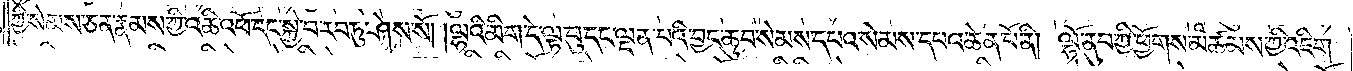ཀྱི་སེམས་ཅན་རྣམས་ཀྱི་འཆི་འཕོ་དང་སྐྱེ་བ་རབ་ཏུ་ཤེས་སོ། །ལྷའི་མིག་དེ་ལྟ་བུ་དང་ལྡན་པའི་བྱང་ཆུབ་སེམས་དཔའ་སེམས་དཔའ་ཆེན་པོ་ནི། ལྷོ་ནུབ་ཀྱི་ཕྱོགས་མཚམས་ཀྱི་འཇིག་
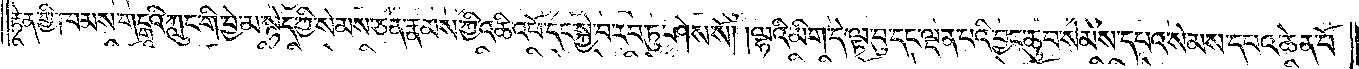རྟེན་གྱི་ཁམས་གངྒཱའི་ཀླུང་གི་བྱེ་མ་སྙེད་ཀྱི་སེམས་ཅན་རྣམས་ཀྱི་འཆི་འཕོ་དང་སྐྱེ་བ་རབ་ཏུ་ཤེས་སོ། །ལྷའི་མིག་དེ་ལྟ་བུ་དང་ལྡན་པའི་བྱང་ཆུབ་སེམས་དཔའ་སེམས་དཔའ་ཆེན་པོ་
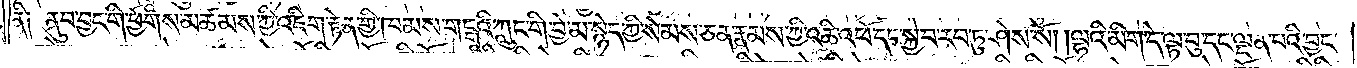ནི༑ ནུབ་བྱང་གི་ཕྱོགས་མཚམས་ཀྱི་འཇིག་རྟེན་གྱི་ཁམས་གངྒཱའི་ཀླུང་གི་བྱེ་མ་སྙེད་ཀྱི་སེམས་ཅན་རྣམས་ཀྱི་འཆི་འཕོ་དང་སྐྱེ་བ་རབ་ཏུ་ཤེས་སོ། །ལྷའི་མིག་དེ་ལྟ་བུ་དང་ལྡན་པའི་བྱང་
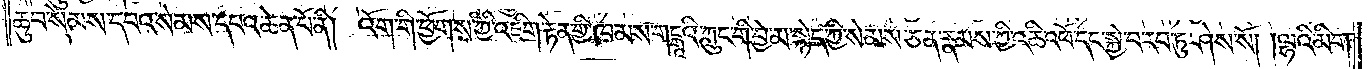ཆུབ་སེམས་དཔའ་སེམས་དཔའ་ཆེན་པོ་ནི། འོག་གི་ཕྱོགས་ཀྱི་འཇིག་རྟེན་གྱི་ཁམས་གངྒཱའི་ཀླུང་གི་བྱེ་མ་སྙེད་ཀྱི་སེམས་ཅན་རྣམས་ཀྱི་འཆི་འཕོ་དང་སྐྱེ་བ་རབ་ཏུ་ཤེས་སོ། །ལྷའི་མིག་
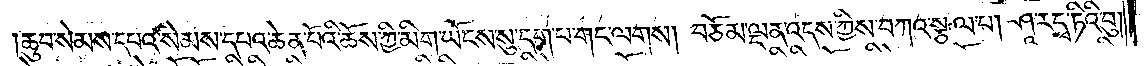ཆུབ་སེམས་དཔའ་སེམས་དཔའ་ཆེན་པོའི་ཆོས་ཀྱི་མིག་ཡོངས་སུ་དག་པ་གང་ལགས། བཅོམ་ལྡན་འདས་ཀྱིས་བཀའ་སྩལ་པ། ཤཱ་རདྭ་ཏིའི་བུ།
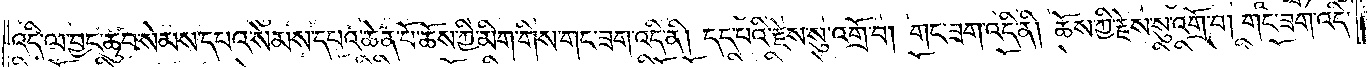འདི་ལ་བྱང་ཆུབ་སེམས་དཔའ་སེམས་དཔའ་ཆེན་པོ་ཆོས་ཀྱི་མིག་གིས་གང་ཟག་འདི་ནི། དད་པའི་རྗེས་སུ་འགྲོ་བ། གང་ཟག་འདི་ནི། ཆོས་ཀྱི་རྗེས་སུ་འགྲོ་བ། གང་ཟག་འདི་
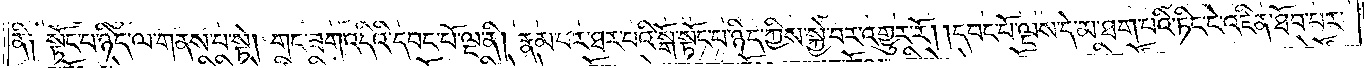ནི༑ སྟོང་པ་ཉིད་ལ་གནས་པ་སྟེ། གང་ཟག་འདིའི་དབང་པོ་ལྔ་ནི། རྣམ་པར་ཐར་པའི་སྒོ་སྟོང་པ་ཉིད་ཀྱིས་སྐྱེ་བར་འགྱུར་རོ། །དབང་པོ་ལྔས་དེ་མ་ཐག་པའི་ཏིང་ངེ་འཛིན་ཐོབ་པར་
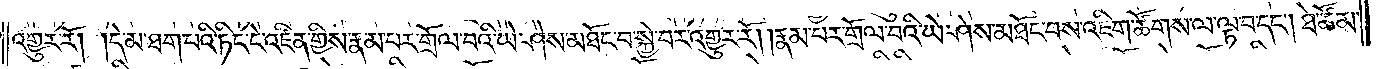འགྱུར་རོ། །དེ་མ་ཐག་པའི་ཏིང་ངེ་འཛིན་གྱིས་རྣམ་པར་གྲོལ་བའི་ཡེ་ཤེས་མཐོང་བ་སྐྱེ་བར་འགྱུར་རོ། །རྣམ་པར་གྲོལ་བའི་ཡེ་ཤེས་མཐོང་བས་འཇིག་ཚོགས་ལ་ལྟ་བ་དང༌། ཐེ་ཚོམ་
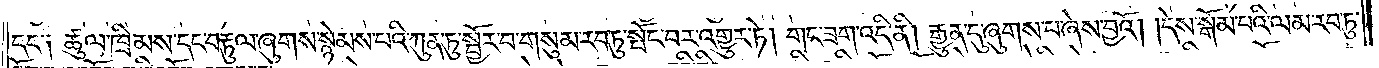དང་༑ ཚུལ་ཁྲིམས་དང་བརྟུལ་ཞུགས་སྙེམས་པའི་ཀུན་ཏུ་སྦྱོར་བ་གསུམ་རབ་ཏུ་སྤོང་བར་འགྱུར་ཏེ། གང་ཟག་འདི་ནི། རྒྱུན་དུ་ཞུགས་པ་ཞེས་བྱའོ། །དེས་སྒོམ་པའི་ལམ་རབ་ཏུ་
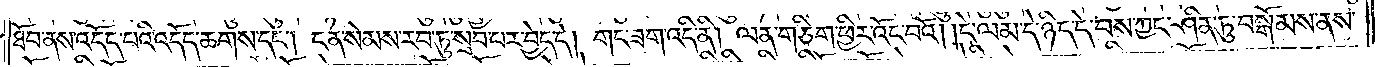ཐོབ་ནས་འདོད་པའི་འདོད་ཆགས་དང༌། ངན་སེམས་རབ་ཏུ་སྲབ་པར་བྱེད་དེ། གང་ཟག་འདི་ནི། ལན་གཅིག་ཕྱིར་འོང་བའོ། །དེ་ལམ་དེ་ཉིད་དེ་བས་ཀྱང་ཤིན་ཏུ་བསྒོམས་ནས་
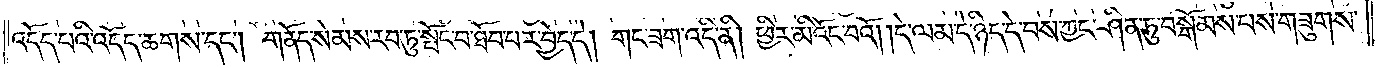འདོད་པའི་འདོད་ཆགས་དང༌། གནོད་སེམས་རབ་ཏུ་སྤོང་བ་ཐོབ་པར་བྱེད་དེ། གང་ཟག་འདི་ནི། ཕྱིར་མི་འོང་བའོ། །དེ་ལམ་དེ་ཉིད་དེ་བས་ཀྱང་ཤིན་ཏུ་བསྒོམས་པས་གཟུགས་
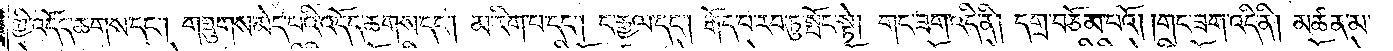ཀྱི་འདོད་ཆགས་དང༌། གཟུགས་མེད་པའི་འདོད་ཆགས་དང༌། མ་རིག་པ་དང༌། ང་རྒྱལ་དང༌། རྒོད་པ་རབ་ཏུ་སྤོང་སྟེ། གང་ཟག་འདི་ནི། དགྲ་བཅོམ་པའོ། །གང་ཟག་འདི་ནི། མཚན་མ་
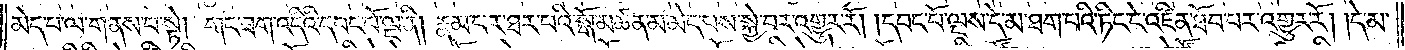མེད་པ་ལ་གནས་པ་སྟེ། གང་ཟག་འདིའི་དབང་པོ་ལྔ་ནི། རྣམ་པར་ཐར་པའི་སྒོ་མཚན་མ་མེད་པས་སྐྱེ་བར་འགྱུར་རོ། །དབང་པོ་ལྔས་དེ་མ་ཐག་པའི་ཏིང་ངེ་འཛིན་ཐོབ་པར་འགྱུར་རོ། །དེ་མ་
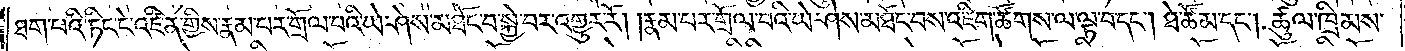ཐག་པའི་ཏིང་ངེ་འཛིན་གྱིས་རྣམ་པར་གྲོལ་བའི་ཡེ་ཤེས་མཐོང་བ་སྐྱེ་བར་འགྱུར་རོ། །རྣམ་པར་གྲོལ་བའི་ཡེ་ཤེས་མཐོང་བས་འཇིག་ཚོགས་ལ་ལྟ་བ་དང༌། ཐེ་ཚོམ་དང༌། ཚུལ་ཁྲིམས་
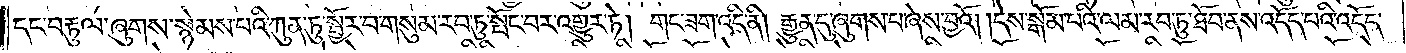དང་བརྟུལ་ཞུགས་སྙེམས་པའི་ཀུན་ཏུ་སྦྱོར་བ་གསུམ་རབ་ཏུ་སྤོང་བར་འགྱུར་ཏེ། གང་ཟག་འདི་ནི། རྒྱུན་དུ་ཞུགས་པ་ཞེས་བྱའོ། །དེས་སྒོམ་པའི་ལམ་རབ་ཏུ་ཐོབ་ནས་འདོད་པའི་འདོད་
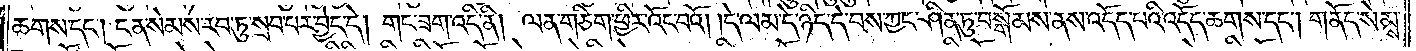ཆགས་དང༌། ངན་སེམས་རབ་ཏུ་སྲབ་པར་བྱེད་དེ། གང་ཟག་འདི་ནི། ལན་གཅིག་ཕྱིར་འོང་བའོ། །དེ་ལམ་དེ་ཉིད་དེ་བས་ཀྱང་ཤིན་ཏུ་བསྒོམས་ནས་འདོད་པའི་འདོད་ཆགས་དང༌། གནོད་སེམས་
